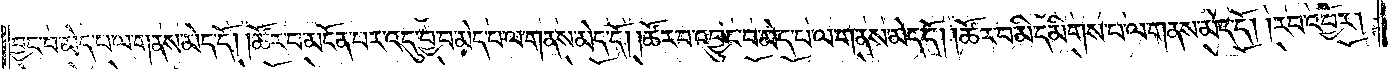བྱང་བ་མེད་པ་ལ་གནས་མེད་དོ། །ཚོར་བ་མངོན་པར་འདུ་བྱ་བ་མེད་པ་ལ་གནས་མེད་དོ། །ཚོར་བ་འབྱུང་བ་མེད་པ་ལ་གནས་མེད་དོ། །ཚོར་བ་མི་དམིགས་པ་ལ་གནས་མེད་དོ། །རབ་འབྱོར།
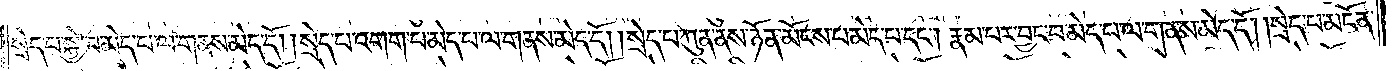སྲེད་པ་སྐྱེ་བ་མེད་པ་ལ་གནས་མེད་དོ། །སྲེད་པ་འགག་པ་མེད་པ་ལ་གནས་མེད་དོ། །སྲེད་པ་ཀུན་ནས་ཉོན་མོངས་པ་མེད་པ་དང༌། རྣམ་པར་བྱང་བ་མེད་པ་ལ་གནས་མེད་དོ། །སྲེད་པ་མངོན་
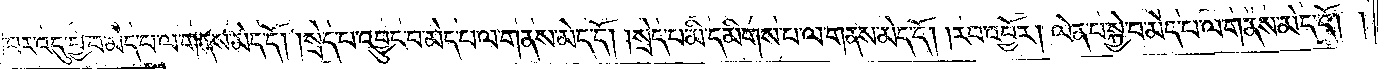པར་འདུ་བྱ་བ་མེད་པ་ལ་གནས་མེད་དོ། །སྲེད་པ་འབྱུང་བ་མེད་པ་ལ་གནས་མེད་དོ། །སྲེད་པ་མི་དམིགས་པ་ལ་གནས་མེད་དོ། །རབ་འབྱོར། ལེན་པ་སྐྱེ་བ་མེད་པ་ལ་གནས་མེད་དོ། །
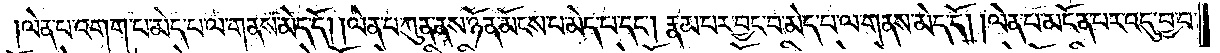ལེན་པ་འགག་པ་མེད་པ་ལ་གནས་མེད་དོ། །ལེན་པ་ཀུན་ནས་ཉོན་མོངས་པ་མེད་པ་དང༌། རྣམ་པར་བྱང་བ་མེད་པ་ལ་གནས་མེད་དོ། །ལེན་པ་མངོན་པར་འདུ་བྱ་བ་
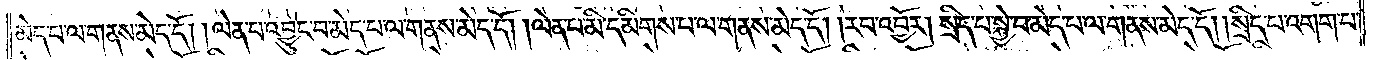མེད་པ་ལ་གནས་མེད་དོ། །ལེན་པ་འབྱུང་བ་མེད་པ་ལ་གནས་མེད་དོ། །ལེན་པ་མི་དམིགས་པ་ལ་གནས་མེད་དོ། །རབ་འབྱོར། སྲིད་པ་སྐྱེ་བ་མེད་པ་ལ་གནས་མེད་དོ། །སྲིད་པ་འགག་པ་
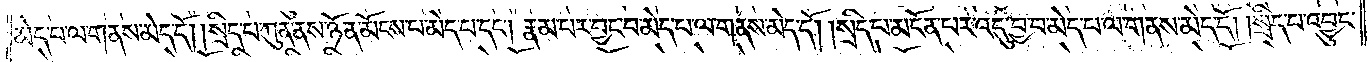མེད་པ་ལ་གནས་མེད་དོ། །སྲིད་པ་ཀུན་ནས་ཉོན་མོངས་པ་མེད་པ་དང༌། རྣམ་པར་བྱང་བ་མེད་པ་ལ་གནས་མེད་དོ། །སྲིད་པ་མངོན་པར་འདུ་བྱ་བ་མེད་པ་ལ་གནས་མེད་དོ། །སྲིད་པ་འབྱུང་
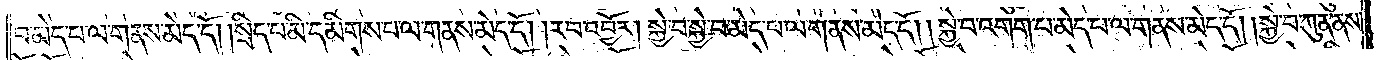བ་མེད་པ་ལ་གནས་མེད་དོ། །སྲིད་པ་མི་དམིགས་པ་ལ་གནས་མེད་དོ། །རབ་འབྱོར། སྐྱེ་བ་སྐྱེ་བ་མེད་པ་ལ་གནས་མེད་དོ། །སྐྱེ་བ་འགག་པ་མེད་པ་ལ་གནས་མེད་དོ། །སྐྱེ་བ་ཀུན་ནས་
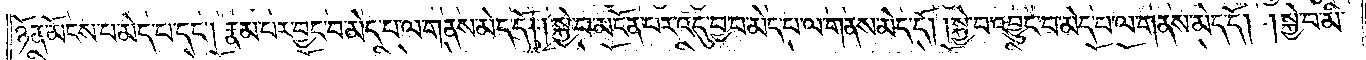ཉོན་མོངས་པ་མེད་པ་དང༌། རྣམ་པར་བྱང་བ་མེད་པ་ལ་གནས་མེད་དོ། །སྐྱེ་བ་མངོན་པར་འདུ་བྱ་བ་མེད་པ་ལ་གནས་མེད་དོ། །སྐྱེ་བ་འབྱུང་བ་མེད་པ་ལ་གནས་མེད་དོ། །སྐྱེ་བ་མི་
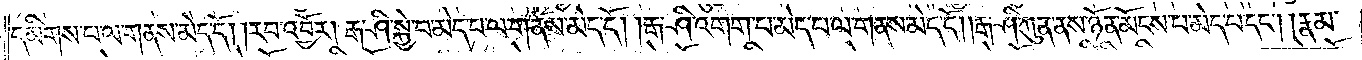དམིགས་པ་ལ་གནས་མེད་དོ། །རབ་འབྱོར། རྒ་ཤི་སྐྱེ་བ་མེད་པ་ལ་གནས་མེད་དོ། །རྒ་ཤི་འགག་པ་མེད་པ་ལ་གནས་མེད་དོ། །རྒ་ཤི་ཀུན་ནས་ཉོན་མོངས་པ་མེད་པ་དང༌། །རྣམ་
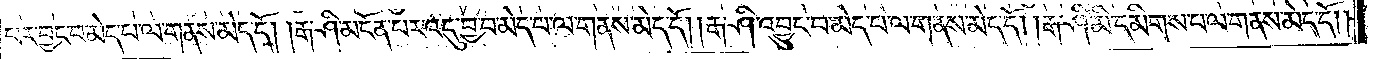པར་བྱང་བ་མེད་པ་ལ་གནས་མེད་དོ། །རྒ་ཤི་མངོན་པར་འདུ་བྱ་བ་མེད་པ་ལ་གནས་མེད་དོ། །རྒ་ཤི་འབྱུང་བ་མེད་པ་ལ་གནས་མེད་དོ། །རྒ་ཤི་མི་དམིགས་པ་ལ་གནས་མེད་དོ། །
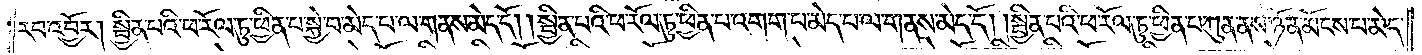རབ་འབྱོར། སྦྱིན་པའི་ཕ་རོལ་ཏུ་ཕྱིན་པ་སྐྱེ་བ་མེད་པ་ལ་གནས་མེད་དོ། །སྦྱིན་པའི་ཕ་རོལ་ཏུ་ཕྱིན་པ་འགག་པ་མེད་པ་ལ་གནས་མེད་དོ། །སྦྱིན་པའི་ཕ་རོལ་ཏུ་ཕྱིན་པ་ཀུན་ནས་ཉོན་མོངས་པ་མེད་
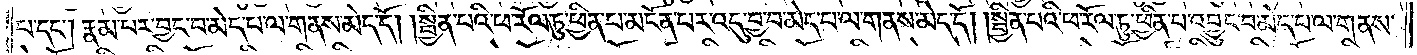པ་དང༌། རྣམ་པར་བྱང་བ་མེད་པ་ལ་གནས་མེད་དོ། །སྦྱིན་པའི་ཕ་རོལ་ཏུ་ཕྱིན་པ་མངོན་པར་འདུ་བྱ་བ་མེད་པ་ལ་གནས་མེད་དོ། །སྦྱིན་པའི་ཕ་རོལ་ཏུ་ཕྱིན་པ་འབྱུང་བ་མེད་པ་ལ་གནས་
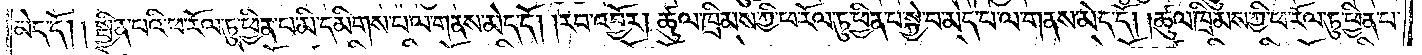མེད་དོ། །སྦྱིན་པའི་ཕ་རོལ་ཏུ་ཕྱིན་པ་མི་དམིགས་པ་ལ་གནས་མེད་དོ། །རབ་འབྱོར། ཚུལ་ཁྲིམས་ཀྱི་ཕ་རོལ་ཏུ་ཕྱིན་པ་སྐྱེ་བ་མེད་པ་ལ་གནས་མེད་དོ། །ཚུལ་ཁྲིམས་ཀྱི་ཕ་རོལ་ཏུ་ཕྱིན་པ་
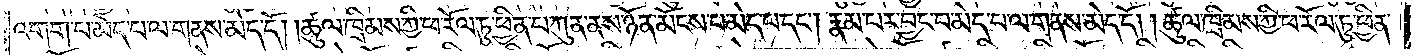འགག་པ་མེད་པ་ལ་གནས་མེད་དོ། །ཚུལ་ཁྲིམས་ཀྱི་ཕ་རོལ་ཏུ་ཕྱིན་པ་ཀུན་ནས་ཉོན་མོངས་པ་མེད་པ་དང༌། རྣམ་པར་བྱང་བ་མེད་པ་ལ་གནས་མེད་དོ། །ཚུལ་ཁྲིམས་ཀྱི་ཕ་རོལ་ཏུ་ཕྱིན་
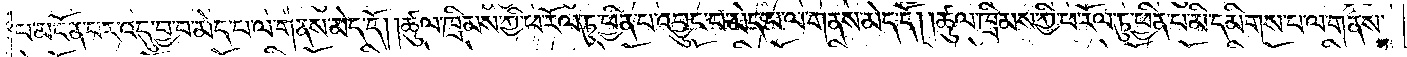པ་མངོན་པར་འདུ་བྱ་བ་མེད་པ་ལ་གནས་མེད་དོ། །ཚུལ་ཁྲིམས་ཀྱི་ཕ་རོལ་ཏུ་ཕྱིན་པ་འབྱུང་བ་མེད་པ་ལ་གནས་མེད་དོ། །ཚུལ་ཁྲིམས་ཀྱི་ཕ་རོལ་ཏུ་ཕྱིན་པ་མི་དམིགས་པ་ལ་གནས་
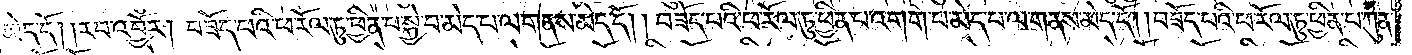མེད་དོ། །རབ་འབྱོར། བཟོད་པའི་ཕ་རོལ་ཏུ་ཕྱིན་པ་སྐྱེ་བ་མེད་པ་ལ་གནས་མེད་དོ། །བཟོད་པའི་ཕ་རོལ་ཏུ་ཕྱིན་པ་འགག་པ་མེད་པ་ལ་གནས་མེད་དོ། །བཟོད་པའི་ཕ་རོལ་ཏུ་ཕྱིན་པ་ཀུན་
